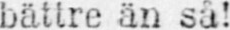bättre än så!
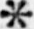*
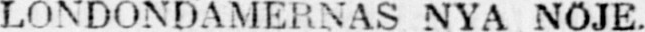LONDONDAMERNAS NYA NÖJE.
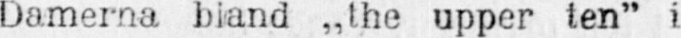Damerna bland „the upper ten“ i
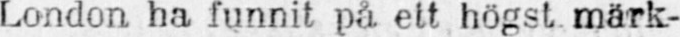London ha funnit på ett högst märk-
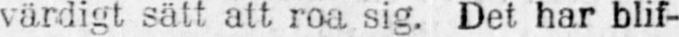värdigt sätt att roa sig. Det har blif-
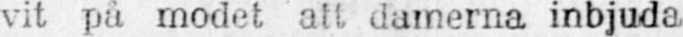vit på modet att damerna inbjuda
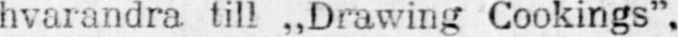hvarandra till „Drawing Cookings“.
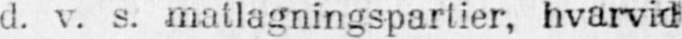d. v. s. matlagningspartier, hvarvid
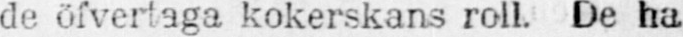de öfvertaga kokerskans roll. De ha
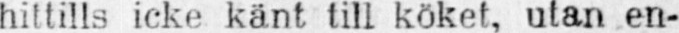hittills icke känt till köket, utan en-
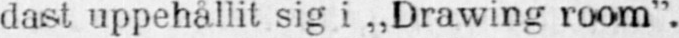dast uppehållit sig i „Drawing room“.
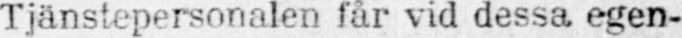Tjänstepersonalen får vid dessa egen-
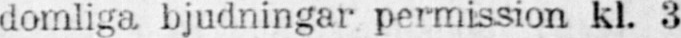domliga bjudningar permission kl. 3
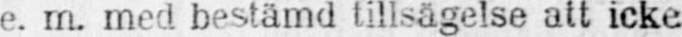e. m. med bestämd tillsägelse att icke
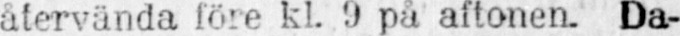återvända före kl. 9 på aftonen. Da-
